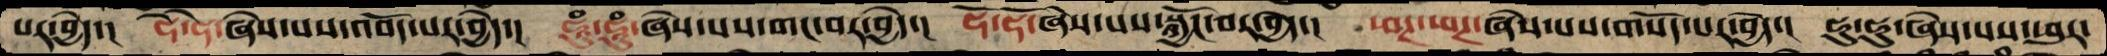པར་བྱེད་།  ཧེ་ཧེ་ཞེས་པས་འབོད་པར་བྱེད་།  ཧཱུཾ་ཧཱུཾ་ཞེས་པས་གང་བར་བྱེད་། ཧོ་ཧོ་ཞེས་པས་སྐྱོང་བར་བྱེད་།  ཕཊ་ཕཊ་ཞེས་པས་གསོད་པར་བྱེད་།  ཧུ་ཧུ་ཞེས་པས་ཕུར་
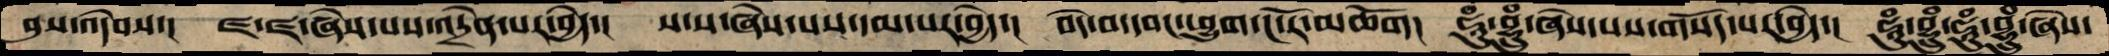བུས་འདེབས་།  ཛ་ཛ་ཞེས་པས་འདྲེན་པར་བྱེད་།  ས་ས་ཞེས་པས་དམ་པར་བྱེད་།  བདེ་བ་དབང་ཕྱུག་ང་རོ་མཆོག།  ཧཱུཾ་བྷྲུཾ་ཞེས་པས་གསོད་པར་བྱེད་།  ཧཱུཾ་བྷྲུཾ་ཧཱུཾ་བྷྲུཾ་ཞེས་
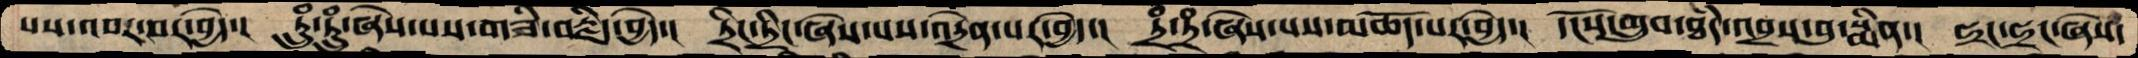སས་འབར་བར་བྱེེད་།  ཏྲུཾ་ཏྲུཾ་ཞེས་པས་གཟི་བརྗིད་བྱེད་།  ཏྲིང་ཏྲིང་ཞེས་པས་འདྲེན་པར་བྱེད་།  ཏྲཾ་ཏྲཾ་ཞེས་པས་མཆོད་པར་བྱེད་།  དངོས་གྲུབ་ཐཾད་འབྲས་བུ་སྨིན་།  ཧྲང་ཧྲང་ཞེས་
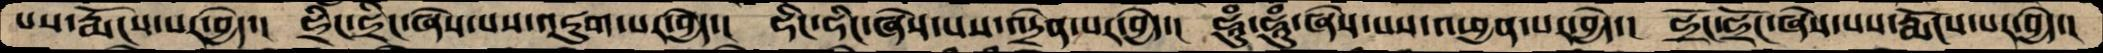པས་རྨོངས་པར་བྱེད་།  ཧྲིང་ཧྲིང་ཞེས་པས་འཇུག་པར་བྱེད་།  ཧིང་ཧིང་ཞེས་པས་འདྲེན་པར་བྱེད་།  ཧཱུཾ་ཧཱུཾ་ཞེས་པས་འཕྱན་པར་བྱེད་། ཧྲོང་ཧྲོང་ཞེས་པས་རྨོངས་པར་བྱེད་།
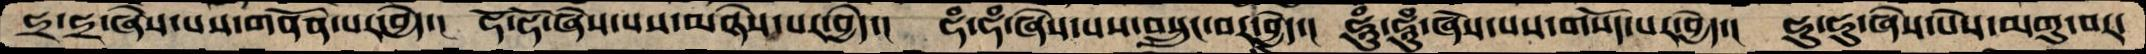ཧྲ་ཧྲ་ཞེས་པས་གནོན་པར་བྱེད་།  ཧོ་ཧོ་ཞེས་པས་མཉེས་པར་བྱེད་།  ཧཾ་ཧཾ་ཞེས་པས་བསྲུང་བར་བྱེད་།  ཧཱུཾ་ཧཱུཾ་ཞེས་པས་གསོད་པར་བྱེད་།  ཧུ་ཧུ་ཞེས་པེས་མགུ་བར་
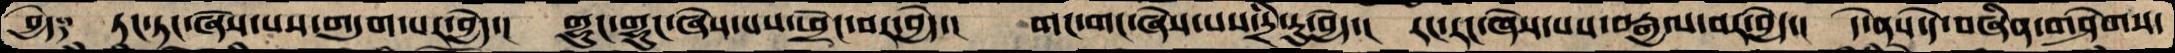བྱེད༑   ཏང་ཏང་ཞེས་པས་གདུག་པར་བྱེད་།  གྷུང་གྷུང་ཞེས་པས་ཕྲེང་བར་བྱེད་།  གང་གང་ཞེས་པས་དྲི་རུ་བྱེད་།  རང་རང་ཞེས་པས་བརྒྱལ་བར་བྱེད་།  དེ་ནས་དེ་བཞིན་གཤེགས་
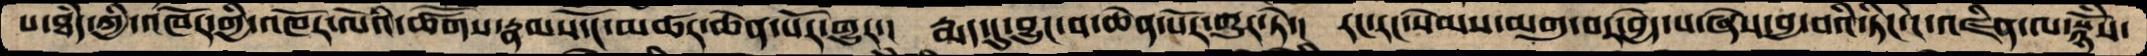པ་ཐཾད་ཀྱི་འཁོར་གྱི་འཁོར་ལོའི་ཚོགས་རྣམས་ངོ་མཚར་ཆེན་པོར་གྱུར་།  རྨད་དུ་བྱུང་བ་ཆེན་པོར་གྱུར་ཏེ་།  རང་རང་སེམས་མགུ་བར་བྱེད་པ་ཞེས་བྱ་བའི་ཏིང་ངེ་འཛིན་ལ་སྙོཾས་
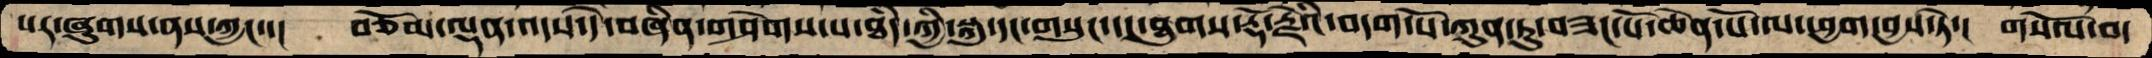པར་ཞུགས་ནས་ཀྱང་་།  བཅོམ་ལྡན་འདས་དེ་བཞིན་གཤེགས་པ་ཐཾད་ཀྱི་སྐུ་དང་གསུང་དང་ཐུགས་རྡོ་རྗེའི་བདག་པོ་ཀུན་ཏུ་བཟང་པོ་ཆེན་པོ་ལ་ཕྱག་བྱས་ཏེ་།  གསོལ་བ་
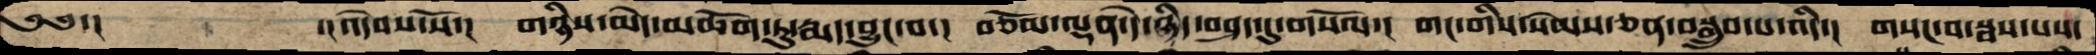༄༅་།     ་།འདེབས་སོ་།   གཉིས་མེད་མཆོག་ཏུ་རྨད་བྱུང་བ་།  བཅོམ་ལྡན་དེ་ཉིད་བཤད་དུ་གསོལ་།  གང་གིས་སེམས་ཅན་བསྒྲུབ་པ་འདི་།  གསང་བ་སྦས་པས་
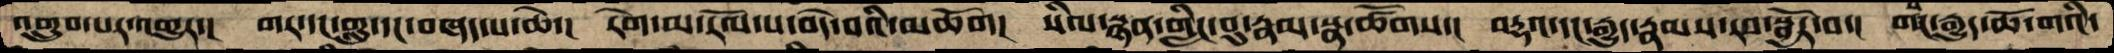འགྲུབ་པར་འགྱུར་།  གར་དང་གླུ་དང་བཞད་པ་ཆེ་།  རེག་མ་རོལ་པ་བདེ་བའི་མཆོག།  སིལ་སྙན་གླིང་བུ་རྣམ་སྣ་ཚོགས་།  བརྡའ་དང་རྒྱུད་རྣམས་རབ་སྦྱོར་བ་།  གང་རྒྱུད་ཆོ་གའི་
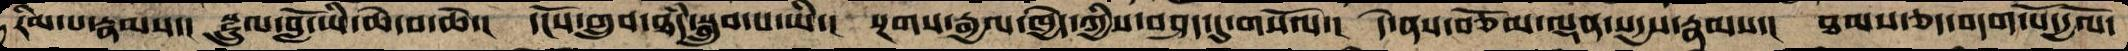རིམ་པ་རྣམས་།  སྫྲུལ་བློ་ཡི་ཆེ་བ་ཆེ་།  དངོས་གྲུབ་ཐཾད་སྒྲུབ་པ་ཡི་།  སྔགས་རྒྱལ་ཁྱེད་ཀྱིས་བཤད་དུ་གསོལ་།  དེ་ནས་བཅོམ་ལྡན་སདྱས་རྣམས་།  ཐམས་ཅད་བདག་པོ་དྱལོ་
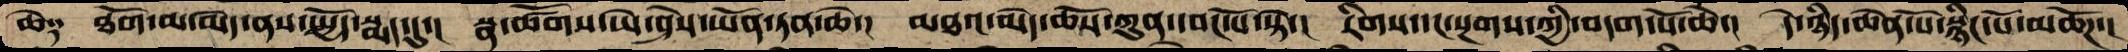ཆེ༑  ཐོག་མ་མེད་ནས་སྤྱོད་སྨད་དུ་།  སྣ་ཚོགས་ཡེ་ཤེས་ཡོན་ཏན་ཆེ་།  མཐའ་མེད་ཆོས་ཀུན་དབང་པོ་སྟེ་།  རིགས་དང་སྔགས་ཀྱི་བདག་པོ་ཆེ་།  དེ་ཉིད་ཆེན་པོ་སྙིང་པོ་མཆོཌ་།
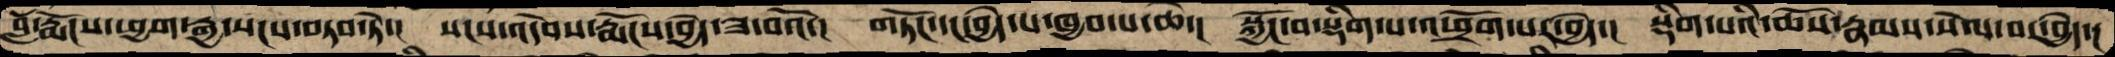བློ་རྨོངས་ཕྱག་རྒྱ་སངས་བཏབ་ཏེ་།  སངས་འདེབས་རྨོངས་བྱེད་ཟ་བའོ་།  གཏོང་དང་བྱེད་པ་ཁྱབ་པ་ཆེ་།  སྐྱོང་བ་སྡིག་པ་འཕྲོག་པར་བྱེད་།  སྡིག་པའི་ཆོས་རྣམས་སེལ་བར་བྱེད་།
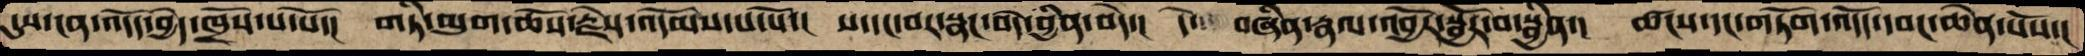དུས་ངན་འདོད་བྱེད་ཁྲོས་པ་པོ་།  གཏི་མུག་ཆོས་རྗེས་འདོམས་པ་པོ་།  ས་དང་བར་སྣང་བདེ་བྱིན་བདེ་།  དེ་  བཞིན་རྣལ་འབྱོར་སྦྱོར་བ་སྦྱིན་།  ཚངས་དང་གཏོག་འདོད་དབང་ཆེན་པོས་།
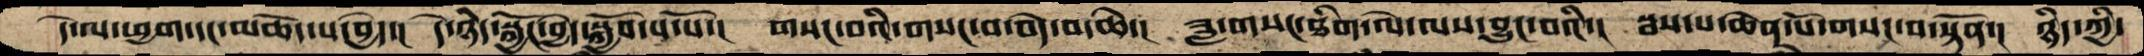དེ་ལ་ཕྱག་དང་མཆོད་པ་བྱེད་།  དེ་ཉིད་སྐྱོང་བྱེད་སྐྱོབ་པ་པོ་།  གསང་བའི་གསང་བ་བདེ་བ་ཆེ་།  ཟླ་གསང་ཐིག་ལེ་ལས་བྱུང་བའི་།  སྦས་པ་ཆེན་པོ་གསང་བ་སྟོན་།  ཉིད་ཀྱི་
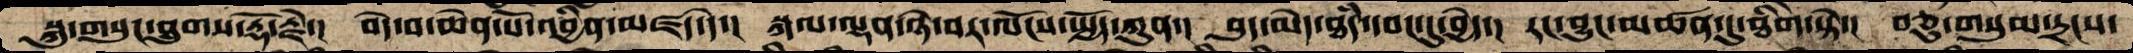སྐུ་གསུང་ཐུགས་རྡོ་རྗེ་།  བདེ་བ་ཆེན་པོ་འབྱིན་མཛད་དེ་།  སྐལ་ལྡན་ཉེ་བར་ལོངས་སྤྱོད་ཀུན་།  བུད་མེད་ཐཾད་དབང་དུ་བྱེད་།  རང་བྱུང་མཚན་ཏུ་ཐིགེ་སྟེ་།  བཅུ་གསུམ་དྲངས་
